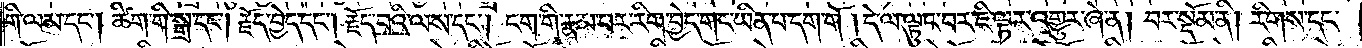གི་ལམ་དང༌། ཚིག་གི་སྒྲ་དང༌། རྗོད་བྱེད་དང༌། རྗོད་པའི་ལས་དང༌། ངག་གི་རྣམ་པར་རིག་བྱེད་གང་ཡིན་པ་དག་གོ །དེ་ལ་ལྟུང་བར་ཇི་ལྟར་འགྱུར་ཞེ་ན། བར་སྡོམ་ནི། རིགས་དང་
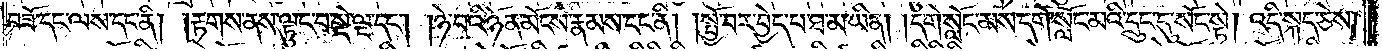བཟོ་དང་ལས་དང་ནི། །རྟགས་ནས་ལྟུང་བ་སྡེ་ལྔ་དང༌། །ཉེ་བའི་ཉོན་མོངས་རྣམས་དང་ནི། །སྤྱོ་བར་བྱེད་པ་ཐ་མ་ཡིན། །དགེ་སློང་མས་དགེ་སློང་མའི་དྲུང་དུ་སོང་སྟེ། འདི་སྐད་ཅེས།
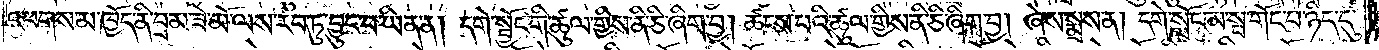འཕགས་མ་ཁྱོད་ནི་བྲམ་ཟེ་མོ་ལས་རབ་ཏུ་བྱུང་བ་ཡིན་ན། དགེ་སྦྱོང་གི་ཚུལ་གྱིས་ནི་ཅི་ཞིག་བྱ། ཚངས་པའི་ཚུལ་གྱིས་ནི་ཅི་ཞིག་བྱ། ཞེས་སྨྲས་ན། དགེ་སློང་མ་སྤ་གོང་བ་ཉིད་དུ་
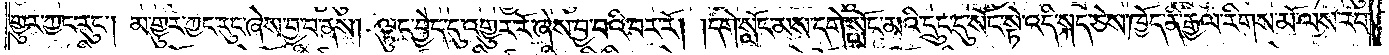གྱུར་ཀྱང་རུང༌། མ་གྱུར་ཀྱང་རུང་ཞེས་བྱ་བ་ནས། ལྟུང་བྱེད་དུ་འགྱུར་རོ་ཞེས་བྱ་བའི་བར་རོ། །དགེ་སློང་མས་དགེ་སློང་མའི་དྲུང་དུ་སོང་སྟེ་འདི་སྐད་ཅེས་ཁྱོད་ནི་རྒྱལ་རིགས་མོ་ལས་རབ་
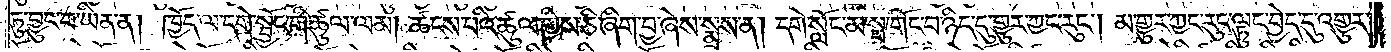ཏུ་བྱུང་བ་ཡིན་ན། ཁྱོད་ལ་དགེ་སྦྱོང་གི་ཚུལ་ལམ། ཚངས་པའི་ཚུལ་གྱིས་ཅི་ཞིག་བྱ་ཞེས་སྨྲས་ན། དགེ་སློང་མ་སྤ་གོང་བ་ཉིད་དུ་གྱུར་ཀྱང་རུང༌། མ་གྱུར་ཀྱང་རུང་ལྟུང་བྱེད་དུ་འགྱུར་
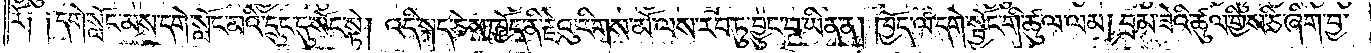རོ༑ ༑དགེ་སློང་མས་དགེ་སློང་མའི་དྲུང་དུ་སོང་སྟེ། འདི་སྐད་ཅེས་ཁྱོད་ནི་རྗེའུ་རིགས་མོ་ལས་རབ་ཏུ་བྱུང་བ་ཡིན་ན། ཁྱོད་ལ་དགེ་སྦྱོང་གི་ཚུལ་ལམ། བྲམ་ཟེའི་ཚུལ་གྱིས་ཅི་ཞིག་བྱ་
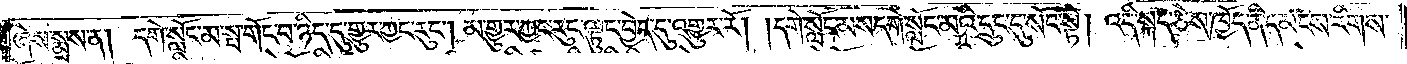ཞེས་སྨྲས་ན། དགེ་སློང་མ་སྤ་གོང་བ་ཉིད་དུ་གྱུར་ཀྱང་རུང༌། མ་གྱུར་ཀྱང་རུང་ལྟུང་བྱེད་དུ་འགྱུར་རོ། །དགེ་སློང་མས་དགེ་སློང་མའི་དྲུང་དུ་སོང་སྟེ། འདི་སྐད་ཅེས་ཁྱོད་ནི་དམངས་རིགས་
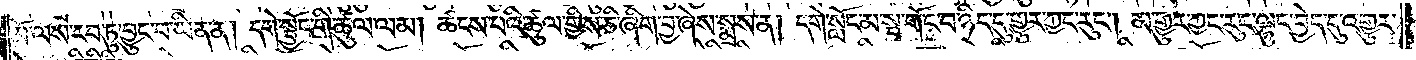མོ་ལས་རབ་ཏུ་བྱུང་བ་ཡིན་ན། དགེ་སྦྱོང་གི་ཚུལ་ལམ། ཚངས་པའི་ཚུལ་གྱིས་ཅི་ཞིག་བྱ་ཞེས་སྨྲས་ན། དགེ་སློང་མ་སྤ་གོང་བ་ཉིད་དུ་གྱུར་ཀྱང་རུང༌། མ་གྱུར་ཀྱང་རུང་ལྟུང་བྱེད་དུ་འགྱུར་
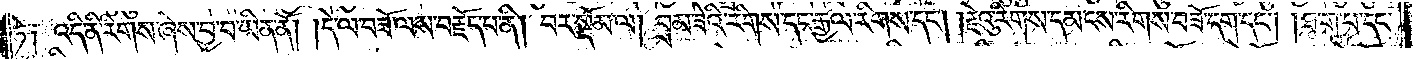ཏེ༑ འདི་ནི་རིགས་ཞེས་བྱ་བ་ཡིན་ནོ། །དེ་ལ་བཟོ་ལས་བརྗོད་པ་ནི། བར་སྡོམ་ལ། བྲམ་ཟེའི་རིགས་དང་རྒྱལ་རིགས་དང༌། །རྗེའུ་རིགས་དམངས་རིགས་བཟོ་དག་དང༌། །ཐ་ག་པ་དང་
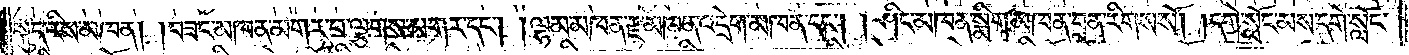སྐུད་རིས་མཁན། །བཟང་མཁན་མགར་བ་ལྕགས་མགར་དང༌། །ལྷམ་མཁན་རྫ་མཁན་འདྲེག་མཁན་དང༌། །ཤིང་མཁན་སྨིག་མཁན་བྲན་རིགས་སོ། །དགེ་སློང་མས་དགེ་སློང་
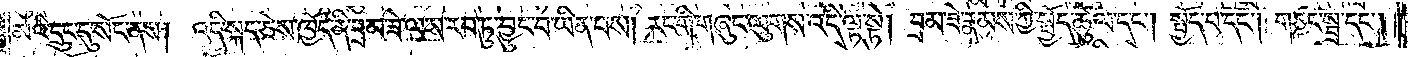མའི་དྲུང་དུ་སོང་ནས། འདི་སྐད་ཅེས་ཁྱོད་ནི་བྲམ་ཟེ་ལས་རབ་ཏུ་བྱུང་བ་ཡིན་པས། རང་གི་གཞུང་ལུགས་འདི་ལྟ་སྟེ། བྲམ་ཟེ་རྣམས་ཀྱི་སྤྱོད་ཚུལ་དང༌། སྤྱོད་པ་དང༌། གཙང་སྦྲ་དང༌།
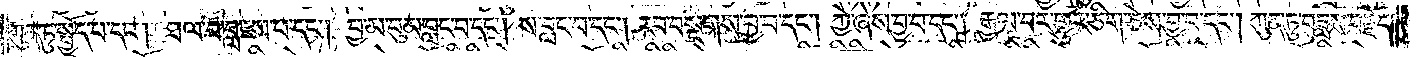ཀུན་ཏུ་སྤྱོད་པ་དང༌། ཐལ་བ་བླངས་པ་དང༌། བྱ་མ་བུམ་བླང་བ་དང༌། ས་བླང་བ་དང༌། རབ་བསྔགས་བྱ་བ་དང༌། ཀྱེ་ཞེས་བྱ་བ་དང༌། རྒྱལ་བར་གྱུར་ཅིག་ཅེས་བྱ་བ་དང༌། ཀུན་ཏུ་བཟླས་བརྗོད་
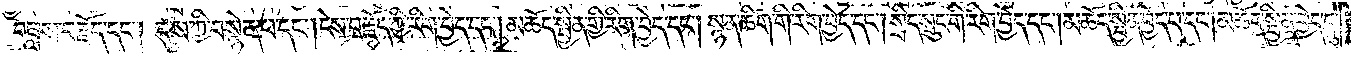བཟླས་བརྗོད་དང༌། དུས་ཀྱི་བསྙེན་པ་དང༌། ངེས་བརྗོད་ཀྱི་རིག་བྱེད་དང༌། མཆོད་སྦྱིན་གྱི་རིག་བྱེད་དང༌། སྙན་ཚིག་གི་རིག་བྱེད་དང༌། སྲིད་སྲུང་གི་རིག་བྱེད་དང༌། མཆོད་སྦྱིན་བྱེད་པ་དང༌། མཆོད་སྦྱིན་བྱེད་དུ་
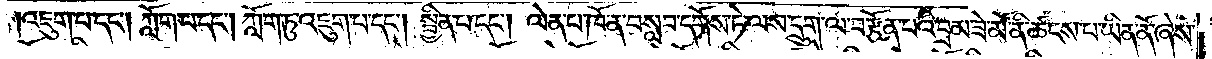འཇུག་པ་དང༌། ཀློག་པ་དང༌། ཀློག་ཏུ་འཇུག་པ་དང༌། སྦྱིན་པ་དང༌། ལེན་པ་ཁོ་ན་བསླབ་དགོས་ཏེ་ལས་དྲུག་ལ་བརྩོན་པའི་བྲམ་ཟེ་མོ་ནི་ཚངས་པ་ཡིན་ནོ་ཞེས་
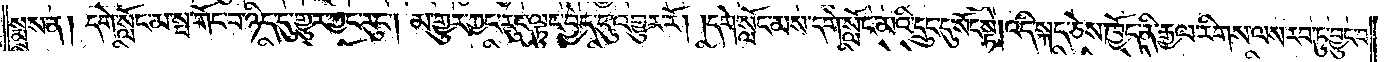སྨྲས་ན། དགེ་སློང་མ་སྤ་གོང་བ་ཉིད་དུ་གྱུར་ཀྱང་རུང༌། མ་གྱུར་ཀྱང་རུང་ལྟུང་བྱེད་དུ་འགྱུར་རོ། །དགེ་སློང་མས་དགེ་སློང་མའི་དྲུང་དུ་སོང་སྟེ། འདི་སྐད་ཅེས་ཁྱོད་ནི་རྒྱལ་རིགས་ལས་རབ་ཏུ་བྱུང་བ་
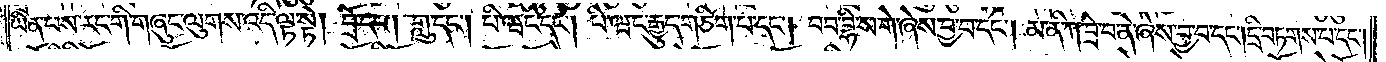ཡིན་པས་རང་གི་གཞུང་ལུགས་འདི་ལྟ་སྟེ། བྲོ་དང༌། གླུ་དང༌། པི་ཝང་དང༌། པི་ཝང་རྒྱུད་གཅིག་པ་དང༌། བབ་བྷི་ས་གེ་ཞེས་བྱ་བ་དང༌། མ་ནི་ཀ་བྲེ་བ་ནེ་ཞེས་བྱ་བ་དང༌། དྲི་བཏགས་པ་དང༌།
